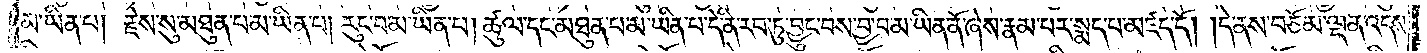མ་ཡིན་པ། རྗེས་སུ་མཐུན་པ་མ་ཡིན་པ། རུང་བ་མ་ཡིན་པ། ཚུལ་དང་མཐུན་པ་མ་ཡིན་པ་དེ་ནི་རབ་ཏུ་བྱུང་བས་བྱ་བ་མ་ཡིན་ནོ་ཞེས་རྣམ་པར་སྨད་པ་མཛད་དོ། །དེ་ནས་བཅོམ་ལྡན་འདས་
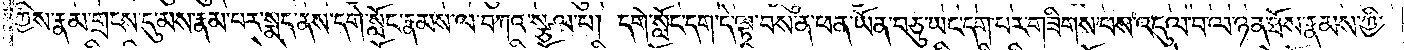ཀྱིས་རྣམ་གྲངས་དུ་མས་རྣམ་པར་སྨད་ནས་དགེ་སློང་རྣམས་ལ་བཀའ་སྩལ་པ། དགེ་སློང་དག་དེ་ལྟ་བས་ན་ཕན་ཡོན་བཅུ་ཡང་དག་པར་གཟིགས་པས་འདུལ་བ་ལ་ཉན་ཐོས་རྣམས་ཀྱི་
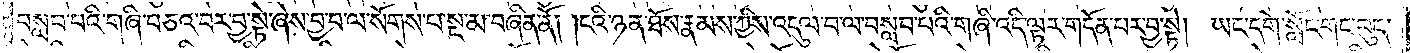བསླབ་པའི་གཞི་བཅའ་བར་བྱ་སྟེ་ཞེས་བྱ་བ་ལ་སོགས་པ་སྔ་མ་བཞིན་ནོ། །ངའི་ཉན་ཐོས་རྣམས་ཀྱིས་འདུལ་བ་ལ་བསླབ་པའི་གཞི་འདི་ལྟར་གདོན་པར་བྱ་སྟེ། ཡང་དགེ་སློང་གང་བུད་
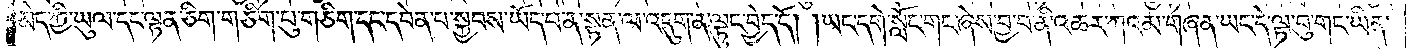མེད་ཀྱི་ཡུལ་དང་ལྷན་ཅིག་གཅིག་པུ་གཅིག་དང་དབེན་པ་སྐྱབས་ཡོད་པ་ན་སྟན་ལ་འདུག་ན་ལྟུང་བྱེད་དོ། །ཡང་དགེ་སློང་གང་ཞེས་བྱ་བ་ནི་འཆར་ཀའམ་གཞན་ཡང་དེ་ལྟ་བུ་གང་ཡིན་
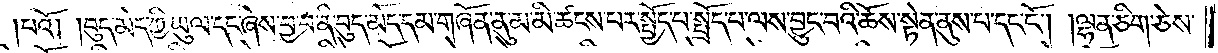པའོ། །བུད་མེད་ཀྱི་ཡུལ་དང་ཞེས་བྱ་བ་ནི་བུད་མེད་དམ་གཞོན་ནུ་མ་མི་ཚངས་པར་སྤྱོད་པ་སྤྲོད་པ་ལས་བྱུང་བའི་ཆོས་སྟེན་ནུས་པ་དང་ངོ༌། །ལྷན་ཅིག་ཅེས་
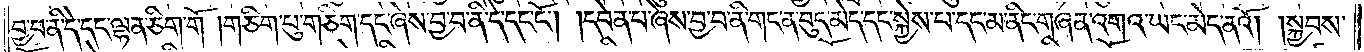བྱ་བ་ནི་དེ་དང་ལྷན་ཅིག་གོ །གཅིག་པུ་གཅིག་དང་ཞེས་བྱ་བ་ནི་དེ་དང་ངོ༌། །དབེན་པ་ཞེས་བྱ་བ་ནི་གང་ན་བུད་མེད་དང་སྐྱེས་པ་དང་མ་ནིང་གཞན་འགའ་ཡང་མེད་ནའོ། །སྐྱབས་
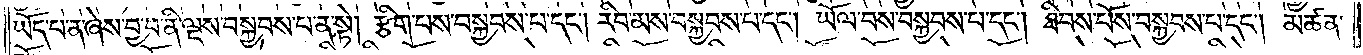ཡོད་པ་ན་ཞེས་བྱ་བ་ནི་ལྔས་བསྐྱབས་པ་ན་སྟེ། རྩིག་པས་བསྐྱབས་པ་དང༌། རིབ་མས་བསྐྱབས་པ་དང༌། ཡོལ་བས་བསྐྱབས་པ་དང༌། ཐིབས་པོས་བསྐྱབས་པ་དང༌། མཚན་
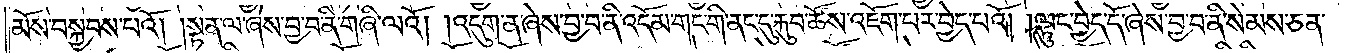མོས་བསྐྱབས་པའོ། །སྟན་ལ་ཞེས་བྱ་བ་ནི་གཞི་ལའོ། །འདུག་ན་ཞེས་བྱ་བ་ནི་འདོམ་གང་གི་ནང་དུ་རྐུབ་ཚོས་འཇོག་པར་བྱེད་པའོ། །ལྟུང་བྱེད་དོ་ཞེས་བྱ་བ་ནི་སེམས་ཅན་
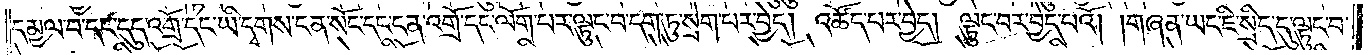དམྱལ་བ་དང་དུད་འགྲོ་དང་ཡི་དྭགས་ངན་སོང་དང་ངན་འགྲོ་དང་ལོག་པར་ལྟུང་བ་དག་ཏུ་སྲེག་པར་བྱེད། འཚོད་པར་བྱེད། ལྟུང་བར་བྱེད་པའོ། །གཞན་ཡང་ཇི་སྲིད་དུ་ལྟུང་བ་
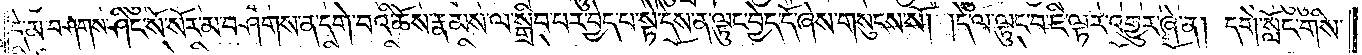དེ་མ་བཤགས་ཤིང་སོ་སོར་མ་བཤགས་ན་དགེ་བའི་ཆོས་རྣམས་ལ་སྒྲིབ་པར་བྱེད་པ་སྟེ་དེས་ན་ལྟུང་བྱེད་དོ་ཞེས་གསུངས་སོ། །དེ་ལ་ལྟུང་བ་ཇི་ལྟར་འགྱུར་ཞེ་ན། དགེ་སློང་གིས་
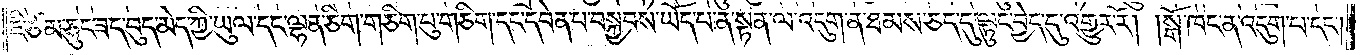ཇི་ཙམ་ཅུང་ཟད་བུད་མེད་ཀྱི་ཡུལ་དང་ལྷན་ཅིག་གཅིག་པུ་གཅིག་དང་དབེན་པ་བསྐྱབས་ཡོད་པ་ན་སྟན་ལ་འདུག་ན་ཐམས་ཅད་དུ་ལྟུང་བྱེད་དུ་འགྱུར་རོ། །སྒོ་ཁང་ན་འདུག་པ་དང༌།
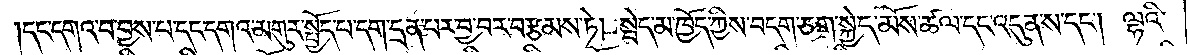དང་དགའ་བ་བྱས་པ་དང་དགའ་མགུར་སྤྱོད་པ་དག་དྲན་པར་བྱ་བར་བརྩམས་ཏེ། སྦེད་མ་ཁྱོད་ཀྱིས་བདག་ཅག་སྐྱེད་མོས་ཚལ་དང་འདུན་ས་དང༌། ལྷའི་
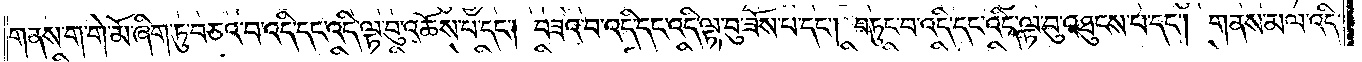གནས་ག་གེ་མོ་ཞིག་ཏུ་བཅའ་བ་འདི་དང་འདི་ལྟ་བུ་འཆོས་པ་དང༌། བཟའ་བ་འདི་དང་འདི་ལྟ་བུ་ཟོས་པ་དང༌། བཏུང་བ་འདི་དང་འདི་ལྟ་བུ་འཐུངས་པ་དང༌། གནས་མལ་འདི་
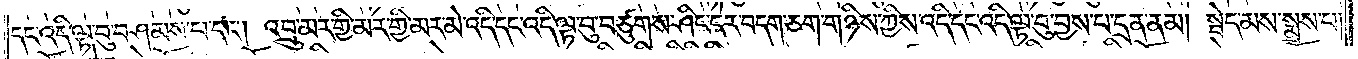དང་འདི་ལྟ་བུ་བཤམས་པ་དང༌། འབྲུ་མར་གྱི་མར་གྱི་མར་མེ་འདི་དང་འདི་ལྟ་བུ་བཙུགས་ཤིང་དེར་བདག་ཅག་གཉིས་ཀྱིས་འདི་དང་འདི་ལྟ་བུ་བྱས་པ་དྲན་ནམ། སྦེད་མས་སྨྲས་པ།
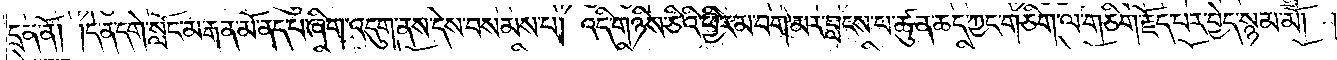དྲན་ནོ། །དེ་ན་དགེ་སློང་མ་རྒན་མོ་ནད་པ་ཞིག་འདུག་ནས་དེས་བསམས་པ། འདི་གཉིས་ཅིའི་ཕྱིར་མ་བག་མར་བླངས་པ་ཚུན་ཆད་ཀྱང་གཅིག་ལ་གཅིག་རྗོད་པར་བྱེད་སྙམ་མོ། །
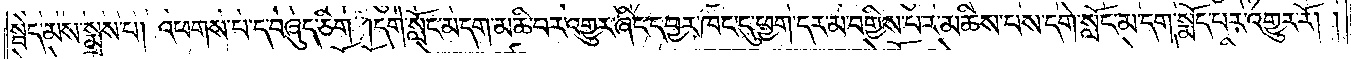སྦེད་མས་སྨྲས་པ། འཕགས་པ་ད་བཞུད་ཅིག །དགེ་སློང་མ་དག་མཆི་བར་འགྱུར་ཞིང་དབྱར་ཁང་དུ་ཕྱག་དར་མ་བགྱིས་པར་མཆིས་པས་དགེ་སློང་མ་དག་སྨོད་པར་འགྱུར་རོ། །
